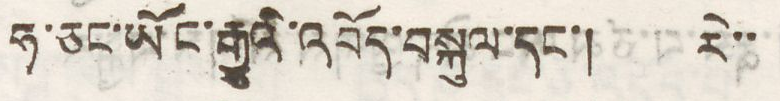ཧ་ཅང་ཡོང་རྒྱུའི་འབོད་བསྐུལ་དང་། རེ་་
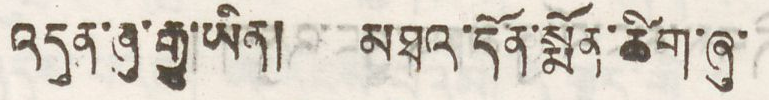འདུན་ཞུ་རྒྱུ་ཡིན། མཐའ་དོན་སྨོས་ཚིག་ཞུ་
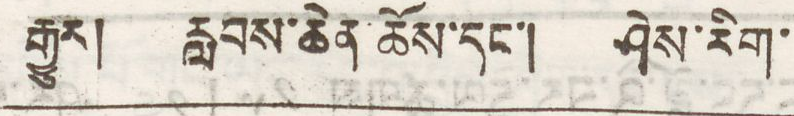རྒྱུར། རླབས་ཆེན་ཆོས་དང་། ཤེས་རིག་
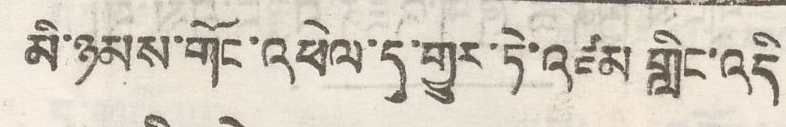མི་ཉགས་གོང་འཕེལ་དུ་གྱུར་ཏེ་འཛམ གླིང་འདི
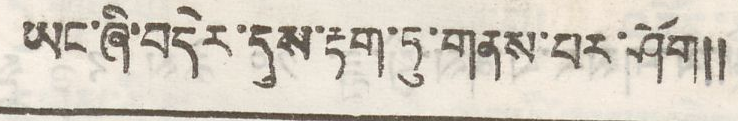ཡང་ཞི་བདེར་དུས་རྟག་ཏུ་གནས་པར་ཤོག།།
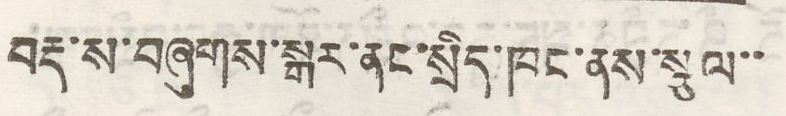བརྡ་ས་བཞུགས་སྒར་ནང་སྲིད་ཁང་ནས་སྩལ་་
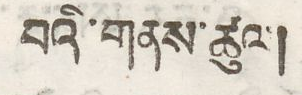པའི་གནས་ཚུལ།
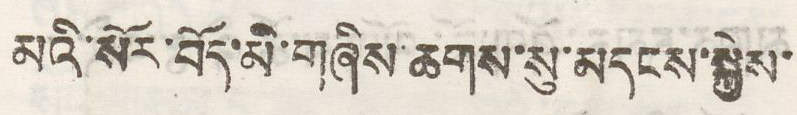མའི་སོར་བོད་མི་གཞིས་ཆགས་སུ་མདངས་སྐྱེས་
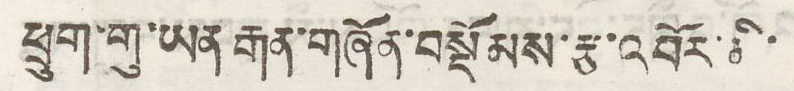ཕྱུག་གུ་ཡན རྒན་གཞོན་བསྡོམས་རྩ་འབོར་མི་
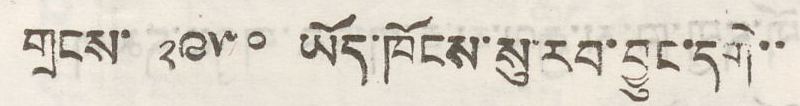གྲངས་ ༡༩༥༠ ཡོད་ཁོངས་སུ་རབ་བྱུང་དགེ་་
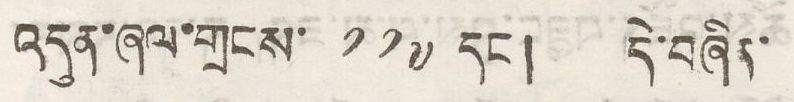འདུན་ཞལ་གྲངས་ ༡༡༧ དང་། དེ་བཞིན་
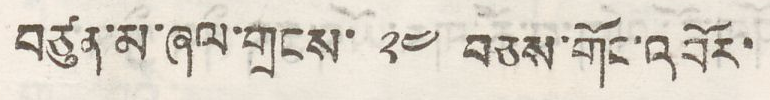བཙུན་མ་ཞལ་གྲངས་ ༢༤ བཅས་གོང་འབོར་
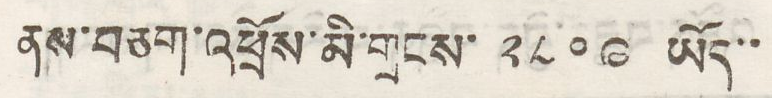ནས་བཅག་འཕྲོས་མི་གྲངས་ ༢༨༠༩ ཡོད་་
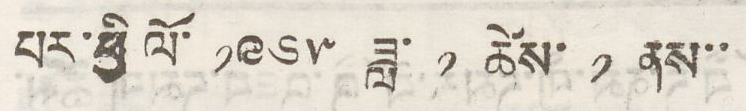པར་ཕྱི ལོ་ ༡༩༦༥ ཟླ་ ༡ ཚེས་ ༡ ནས་་
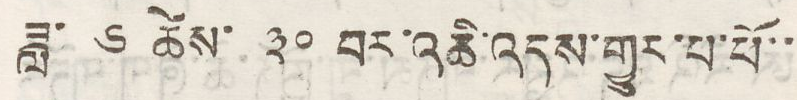ཟླ་ ༦ ཚེས་ ༣༠ བར་འཆི་འདས་གྱུར་པ་པོ་་
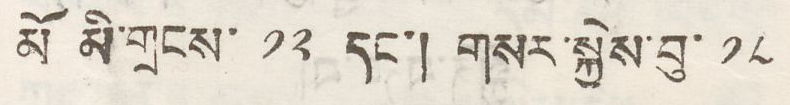མོ མི་གྲངས་ ༡༢ དང་། གསར་སྐྱེས་བུ་ ༡༨
